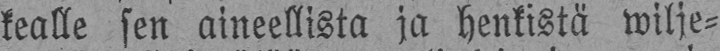kealle sen aineellista ja henkistä wilje-
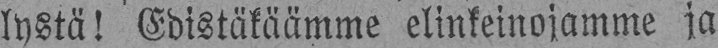lystä! Edistäkäämme elinkeinojamme ja
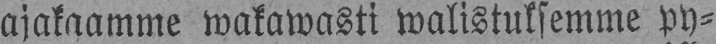ajakaamme wakawasti walistuksemme py-
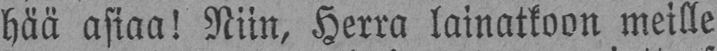hää asiaa! Niin, Herra lainatkoon meille
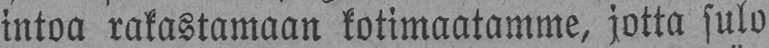intoa rakastamaan kotimaatamme, jotta sulo
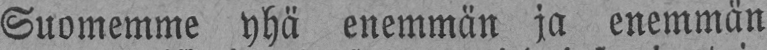Suomemme yhä enemmän ja enemmän
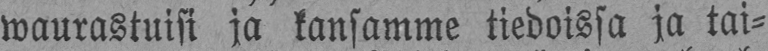waurastuisi ja kansamme tiedoissa ja tai-
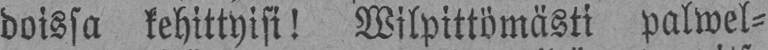doissa kehittyisi! Wilpittömästi palwel-
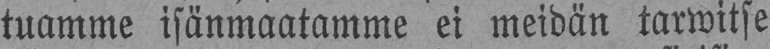tuamme isänmaatamme ei meidän tarwitse
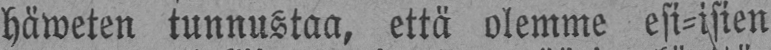häweten tunnustaa, että olemme esi-isien
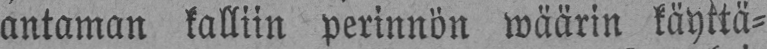antaman kalliin perinnön wäärin käyttä-
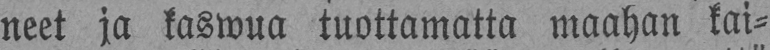neet ja kaswua tuottamatta maahan kai-
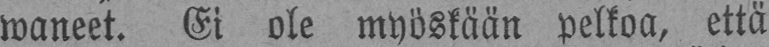waneet. Ei ole myöskään pelkoa, että
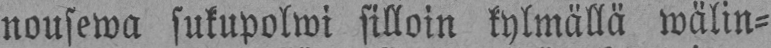nousewa sukupolwi silloin kylmällä wälin-
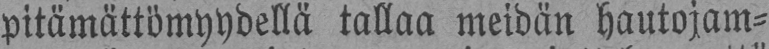pitämättömyydellä tallaa meidän hautojam-
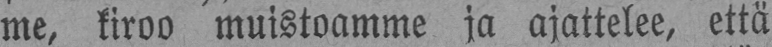me, kiroo muistoamme ja ajattelee, että
